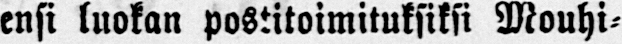ensi luokan postitoimituksiksi Mouhi-
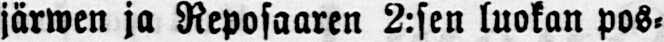järwen ja Reposaaren 2:sen luokan pos-
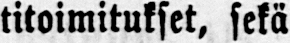titoimitukset, sekä
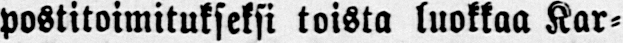postitoimitukseksi toista luokkaa Kar-
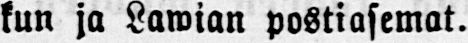kun ja Lawian postiasemat.
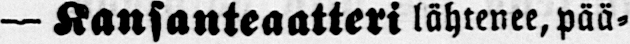— Kansanteaatteri lähtenee, pää-
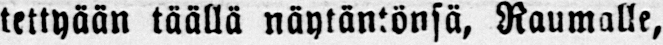tettyään täällä näytäntönsä, Raumalle,
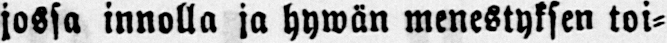jossa innolla ja hywän menestyksen toi-
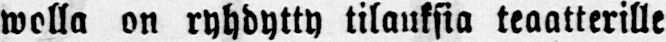wolla on ryhdytty tilauksia teaatterille
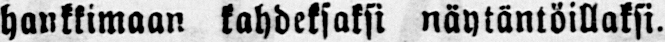hankkimaan kahdeksaksi näytäntöillaksi.
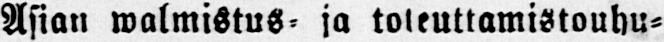Asian walmistus- ja toteuttamistouhu-
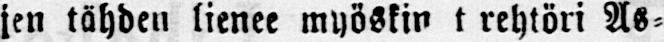jen tähden lienee myöskin t rehtori As-
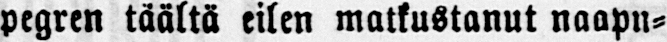pegren täältä eilen matkustanut naapu-
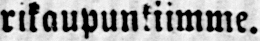rikaupunkiimme.
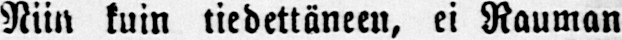Niin kuin tiedettäneen, ei Rauman
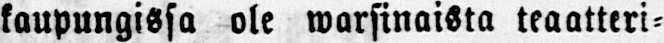kaupungissa ole warsinaista teaatteri-
